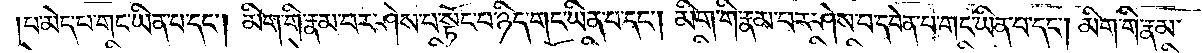པ་མེད་པ་གང་ཡིན་པ་དང༌། མིག་གི་རྣམ་པར་ཤེས་པ་སྟོང་པ་ཉིད་གང་ཡིན་པ་དང༌། མིག་གི་རྣམ་པར་ཤེས་པ་དབེན་པ་གང་ཡིན་པ་དང༌། མིག་གི་རྣམ་
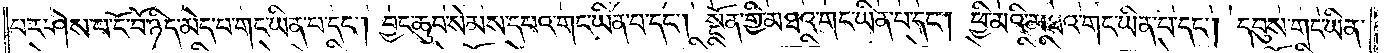པར་ཤེས་པ་ངོ་བོ་ཉིད་མེད་པ་གང་ཡིན་པ་དང༌། བྱང་ཆུབ་སེམས་དཔའ་གང་ཡིན་པ་དང༌། སྔོན་གྱི་མཐའ་གང་ཡིན་པ་དང༌། ཕྱི་མའི་མཐའ་གང་ཡིན་པ་དང༌། དབུས་གང་ཡིན་
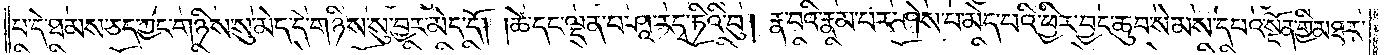པ་དེ་ཐམས་ཅད་ཀྱང་གཉིས་སུ་མེད་དེ་གཉིས་སུ་བྱར་མེད་དོ། །ཚེ་དང་ལྡན་པ་ཤཱ་རདྭ་ཏིའི་བུ། རྣ་བའི་རྣམ་པར་ཤེས་པ་མེད་པའི་ཕྱིར་བྱང་ཆུབ་སེམས་དཔའ་སྔོན་གྱི་མཐར་
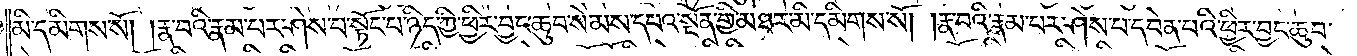མི་དམིགས་སོ། །རྣ་བའི་རྣམ་པར་ཤེས་པ་སྟོང་པ་ཉིད་ཀྱི་ཕྱིར་བྱང་ཆུབ་སེམས་དཔའ་སྔོན་གྱི་མཐར་མི་དམིགས་སོ། །རྣ་བའི་རྣམ་པར་ཤེས་པ་དབེན་པའི་ཕྱིར་བྱང་ཆུབ་
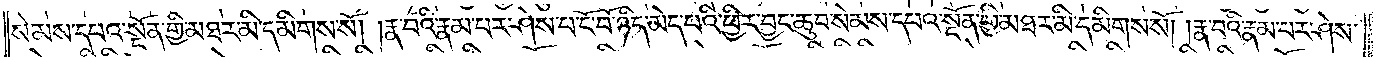སེམས་དཔའ་སྔོན་གྱི་མཐར་མི་དམིགས་སོ། །རྣ་བའི་རྣམ་པར་ཤེས་པ་ངོ་བོ་ཉིད་མེད་པའི་ཕྱིར་བྱང་ཆུབ་སེམས་དཔའ་སྔོན་གྱི་མཐར་མི་དམིགས་སོ། །རྣ་བའི་རྣམ་པར་ཤེས་
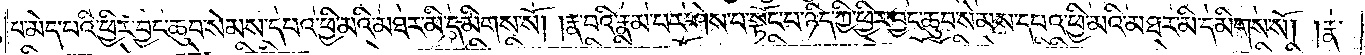པ་མེད་པའི་ཕྱིར་བྱང་ཆུབ་སེམས་དཔའ་ཕྱི་མའི་མཐར་མི་དམིགས་སོ། །རྣ་བའི་རྣམ་པར་ཤེས་པ་སྟོང་པ་ཉིད་ཀྱི་ཕྱིར་བྱང་ཆུབ་སེམས་དཔའ་ཕྱི་མའི་མཐར་མི་དམིགས་སོ། །རྣ་
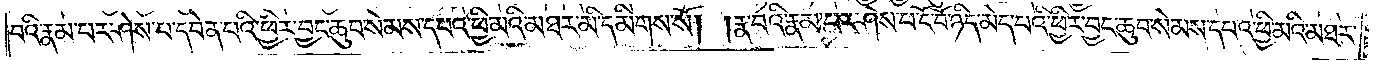བའི་རྣམ་པར་ཤེས་པ་དབེན་པའི་ཕྱིར་བྱང་ཆུབ་སེམས་དཔའ་ཕྱི་མའི་མཐར་མི་དམིགས་སོ། །རྣ་བའི་རྣམ་པར་ཤེས་པ་ངོ་བོ་ཉིད་མེད་པའི་ཕྱིར་བྱང་ཆུབ་སེམས་དཔའ་ཕྱི་མའི་མཐར་
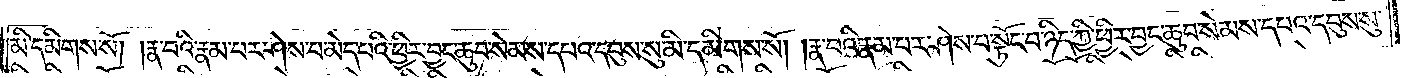མི་དམིགས་སོ། །རྣ་བའི་རྣམ་པར་ཤེས་པ་མེད་པའི་ཕྱིར་བྱང་ཆུབ་སེམས་དཔའ་དབུས་སུ་མི་དམིགས་སོ། །རྣ་བའི་རྣམ་པར་ཤེས་པ་སྟོང་པ་ཉིད་ཀྱི་ཕྱིར་བྱང་ཆུབ་སེམས་དཔའ་དབུས་སུ་
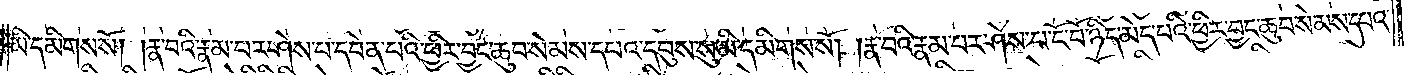མི་དམིགས་སོ། །རྣ་བའི་རྣམ་པར་ཤེས་པ་དབེན་པའི་ཕྱིར་བྱང་ཆུབ་སེམས་དཔའ་དབུས་སུ་མི་དམིགས་སོ། །རྣ་བའི་རྣམ་པར་ཤེས་པ་ངོ་བོ་ཉིད་མེད་པའི་ཕྱིར་བྱང་ཆུབ་སེམས་དཔའ་
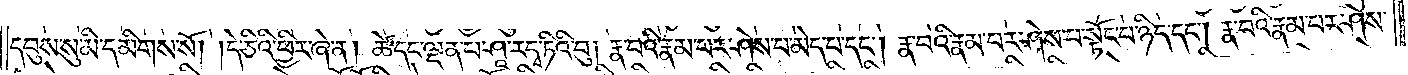དབུས་སུ་མི་དམིགས་སོ། །དེ་ཅིའི་ཕྱིར་ཞེ་ན། ཚེ་དང་ལྡན་པ་ཤཱ་རདྭ་ཏིའི་བུ། རྣ་བའི་རྣམ་པར་ཤེས་པ་མེད་པ་དང༌། རྣ་བའི་རྣམ་པར་ཤེས་པ་སྟོང་པ་ཉིད་དང༌། རྣ་བའི་རྣམ་པར་ཤེས་
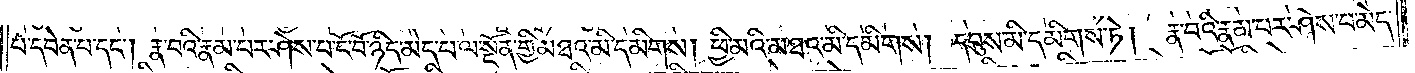པ་དབེན་པ་དང༌། རྣ་བའི་རྣམ་པར་ཤེས་པ་ངོ་བོ་ཉིད་མེད་པ་ལ་སྔོན་གྱི་མཐའ་མི་དམིགས། ཕྱི་མའི་མཐའ་མི་དམིགས། དབུས་མི་དམིགས་ཏེ། རྣ་བའི་རྣམ་པར་ཤེས་པ་མེད་
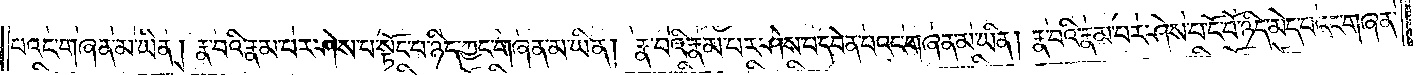པའང་གཞན་མ་ཡིན། རྣ་བའི་རྣམ་པར་ཤེས་པ་སྟོང་པ་ཉིད་ཀྱང་གཞན་མ་ཡིན། རྣ་བའི་རྣམ་པར་ཤེས་པ་དབེན་པའང་གཞན་མ་ཡིན། རྣ་བའི་རྣམ་པར་ཤེས་པ་ངོ་བོ་ཉིད་མེད་པའང་གཞན་
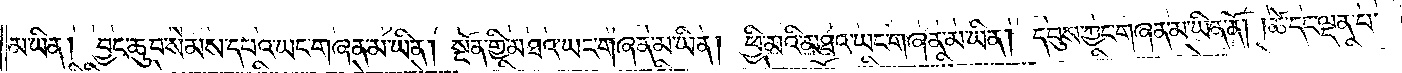མ་ཡིན། བྱང་ཆུབ་སེམས་དཔའ་ཡང་གཞན་མ་ཡིན། སྔོན་གྱི་མཐའ་ཡང་གཞན་མ་ཡིན། ཕྱི་མའི་མཐའ་ཡང་གཞན་མ་ཡིན། དབུས་ཀྱང་གཞན་མ་ཡིན་ནོ། །ཚེ་དང་ལྡན་པ་ཤཱ་
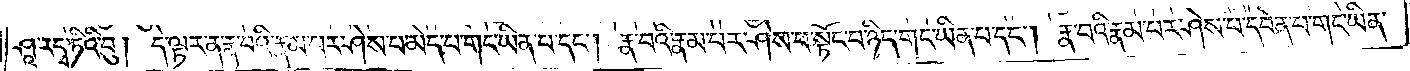རདྭ་ཏིའི་བུ། དེ་ལྟར་ན་རྣ་བའི་རྣམ་པར་ཤེས་པ་མེད་པ་གང་ཡིན་པ་དང༌། རྣ་བའི་རྣམ་པར་ཤེས་པ་སྟོང་པ་ཉིད་གང་ཡིན་པ་དང༌། རྣ་བའི་རྣམ་པར་ཤེས་པ་དབེན་པ་གང་ཡིན་
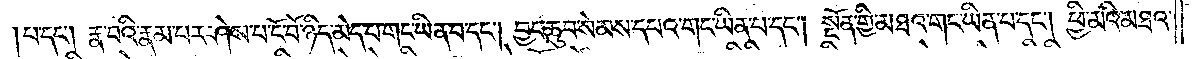པ་དང༌། རྣ་བའི་རྣམ་པར་ཤེས་པ་ངོ་བོ་ཉིད་མེད་པ་གང་ཡིན་པ་དང༌། བྱང་ཆུབ་སེམས་དཔའ་གང་ཡིན་པ་དང༌། སྔོན་གྱི་མཐའ་གང་ཡིན་པ་དང༌། ཕྱི་མའི་མཐའ་
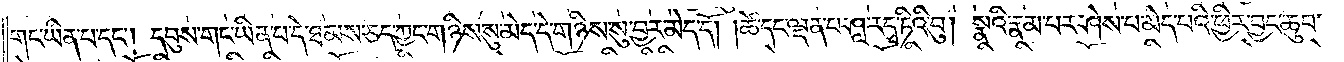གང་ཡིན་པ་དང༌། དབུས་གང་ཡིན་པ་དེ་ཐམས་ཅད་ཀྱང་གཉིས་སུ་མེད་དེ་གཉིས་སུ་བྱར་མེད་དོ། །ཚེ་དང་ལྡན་པ་ཤཱ་རདྭ་ཏིའི་བུ། སྣའི་རྣམ་པར་ཤེས་པ་མེད་པའི་ཕྱིར་བྱང་ཆུབ་
